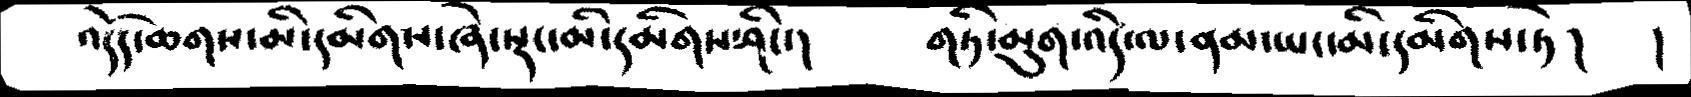འདོད་ཆགས་མི་དམིགས་ཞེ་སྡང་མི་དམིགས་ཤིང་།   གཏི་མུག་འདི་ལ་ནམ་ཡང་མི་དམིགས་ཏེ།    །
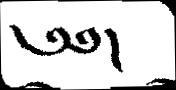༄༅།
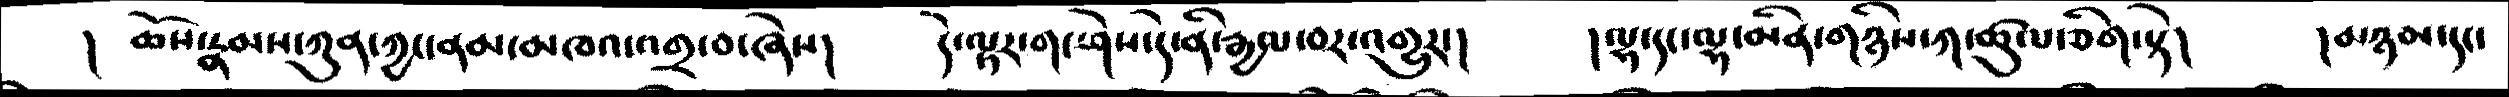།  ཆོས་རྣམས་ཀུན་ཀྱང་ནམ་མཁའ་འགྲ་བ་ཞེས།    དེ་ལྟར་གང་ཤེས་དེ་ནི་རྒྱལ་བར་འགྱུར་།    །ལྷ་དང་ལྷ་མིན་གཉིས་ཀ་ཚུལ་ཅིག་སྟེ།     །མཉམ་དང་
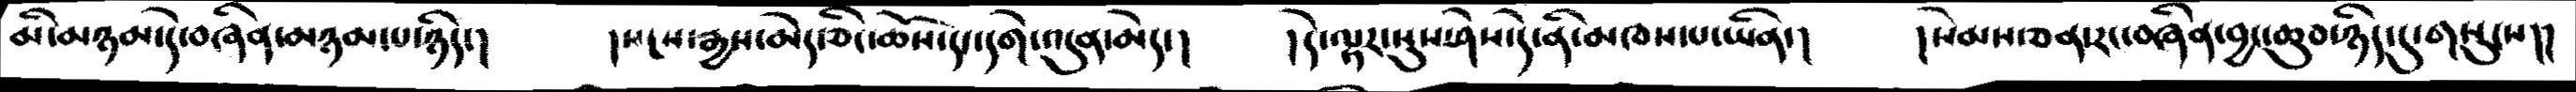མ་མཉམ་དེ་བཞིན་མཉམ་པ་ཉིད་།  །སངས་རྒྱས་མེད་ཅང་ཆོས་དང་དགེ་འདུན་མེད་།  །དེ་ལྟར་སུས་ཤེས་དེ་ནི་མཁས་པ་ཡིན་།   །སེམས་ཅན་རང་བཞིན་བྱང་ཆུབ་ཉིད་དུ་གསུངས།།
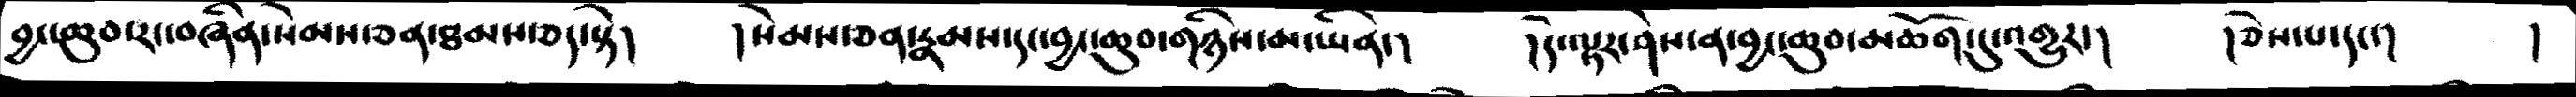བྱང་ཆུབ་རང་བཞིན་སེམས་ཅན་ཐམས་ཅད་སྟེ།  །སེམས་ཅན་རྣམས་དང་བྱང་ཆུབ་གཉིད་མ་ཡིན་།  །དེ་ལྟར་ཤེས་ན་བྱང་ཆུབ་མཆོག་དུ་འགྱུར་།  །ཅེས་པ་དང་།    །
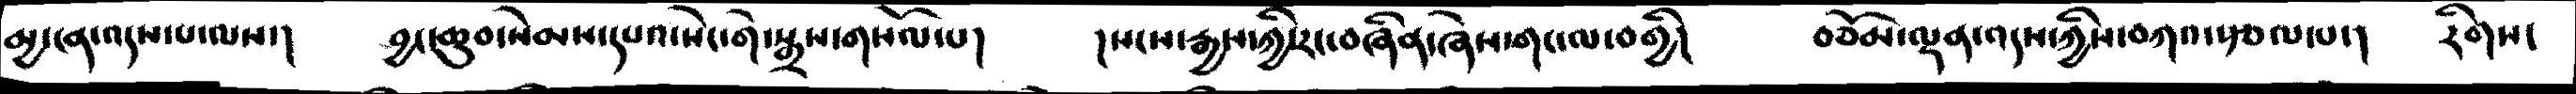མྱ་དན་འདས་པ་ལས་།   བྱང་ཆུབ་སེམས་དཔའ་སེང་གེ་སྒྲས་གསོལ་པ།   །སངས་རྒྱས་ཀྱི་རང་བཞིན་གང་ལ་བགྱི།  བཅོམ་ལྡན་འདས་ཀྱིས་བཀའ་སྩལ་པ་།    རིགས་
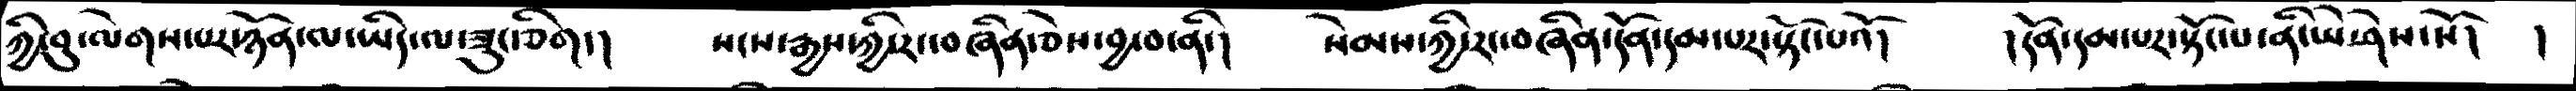ཀྱི་བུ་ལེགས་པར་ཉོན་ལ་ཡིད་ལ་ཟུང་ཅིག་།  སངས་རྒྱས་ཀྱི་རང་བཞིན་ཅེས་བྱ་བ་ནི་།   སེམས་ཀྱི་རང་བཞིན་དོན་དམ་པར་སྟོང་པའོ།  །དོན་དམ་པར་སྟོང་པ་ནི་ཡེ་ཤེས་སོ།   །
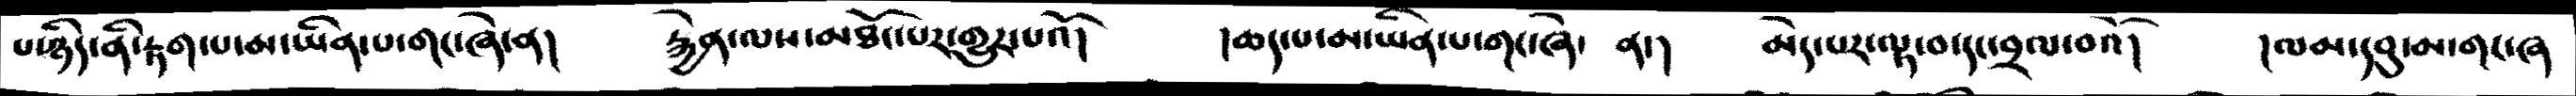པ་ཉིད་ནི་རྟག་པ་མ་ཡིན་པ་གང་ཞེ་ན།    རྐྱེན་ལས་མཐོང་པར་གྱུར་པའོ།    །ཆད་པ་མ་ཡིན་པ་གང་ཞེ་   ན་།    མེད་པར་ལྟ་བ་དང་བྲལ་བའོ།    །ལམ་དབུ་མ་གང་ཞ
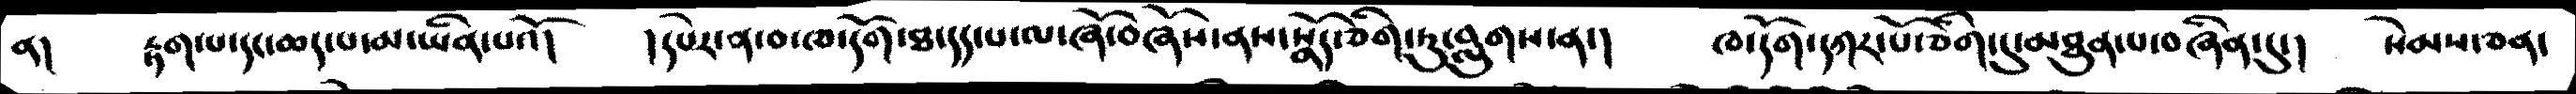ན།   རྟག་པ་དང་ཆད་པ་མ་ཡིན་པའོ།    །དཔེར་ན་བ་ཁ་དོག་ཐ་དད་པ་ལ་ཞོ་བཞོས་ནས་སྣོད་ཅིག་ཏུ་བླུགས་ན་།      ཁ་དོག་དཀར་པོ་ཅིག་དུ་མཐུན་པ་བཞིན་དུ་།   སེམས་ཅན་
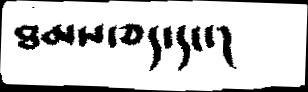ཐམས་ཅད་དང་།
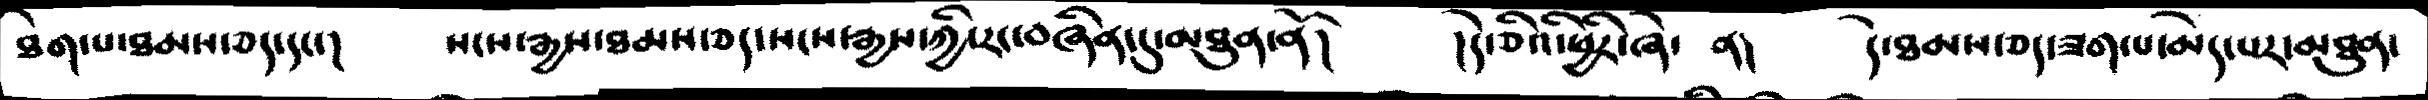ཐེག་པ་ཐམས་ཅད་དང་།    སངས་རྒྱས་ཐམས་ཅད་སངས་རྒྱས་ཀྱི་རང་བཞིན་དུ་མཐུན་ནོ།      །དེ་ཅིའི་ཕྱིར་ཞེ་  ན།      དེ་ཐམས་ཅད་ཟག་པ་མེད་པར་མཐུན་
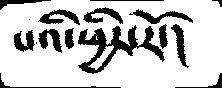པའི་ཕྱིར་རོ།
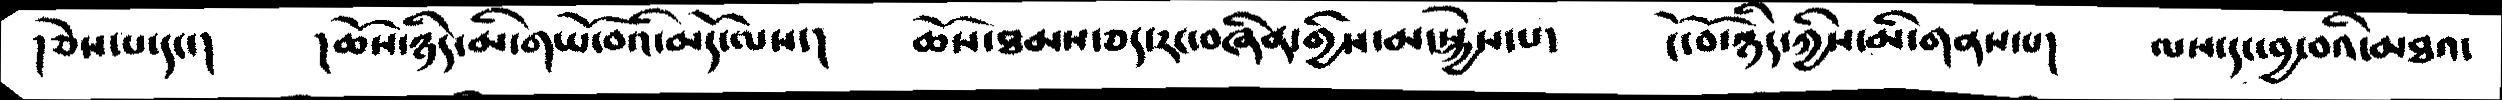།ཅེས་པ་དང་།    །ཆོས་ཉིད་མི་གཡོ་བའི་མདོ་ལས་།    ཆོས་ཐམས་ཅད་རང་བཞིན་གྱིས་མ་སྐྱེས་པ་    ངོ་བོ་ཉིད་ཀྱིས་མི་གནས་པ།   ལས་དང་བྱ་བའི་མཐའ་
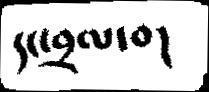དང་བྲལ་བ།
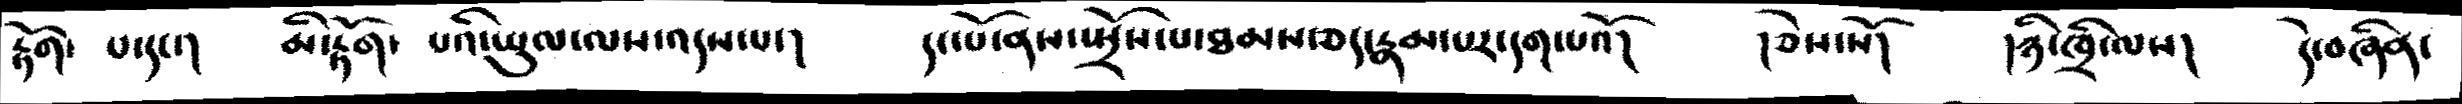རྟོག་  པ་དང་།    མི་རྟོག་  པའི་ཡུལ་ལས་འདས་པ་།      དང་པོ་ནས་སྤྲོས་པ་ཐམས་ཅད་རྣམ་པར་དག་པའོ།      །ཅེས་སོ།    །ཉི་ཁྲི་ལས།   དེ་བཞིན་
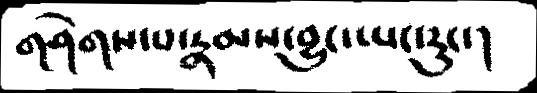གཤེགས་པ་རྣམས་བྱུང་ཡང་རུང་།
